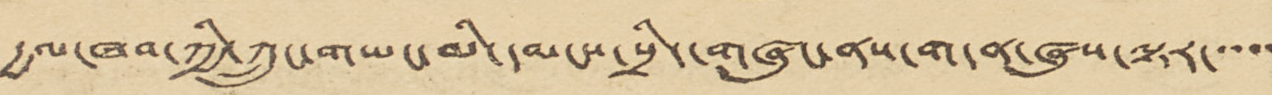རྒྱལ་ཁབ་ཀྱི་ཀྲུང་གཡང་མི་དམངས་སྲིད་གཞུང་ནས་གདན་ཞུས་ལྟར་་་་་
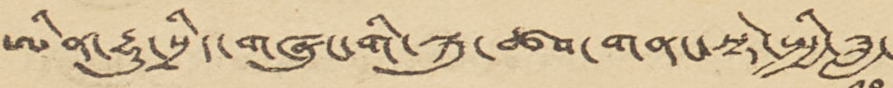ཨིན་རྷུ་སྲིད་གཞུང་གི་སྐུ་ཚབ་གནང་སྟེ་སྤྱི་ཟླ་
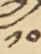༡༠
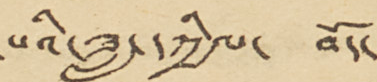པའི་ཟླ་དཀྱིལ་ བོད་
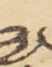ཟླ་
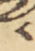༨
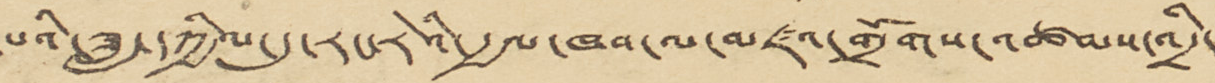པའི་ཟླ་དཀྱིལ་དུ་རང་རེའི་རྒྱལ་ཁབ་ལ་མཛའ་གྲོགས་འཚམས་འདྲི་
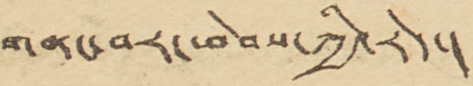གནང་བར་ཕེབས་ཀྱི་རེད་།
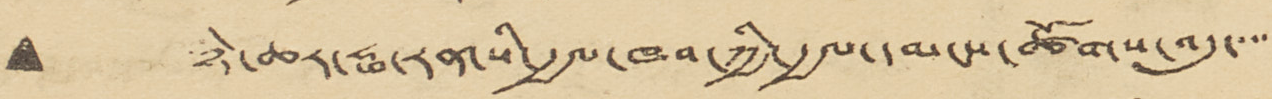• ཉེ་ཆར་ཧྥ་རན་སི་རྒྱལ་ཁབ་ཀྱི་རྒྱལ་དམངས་ཚོགས་འདུ་་་་
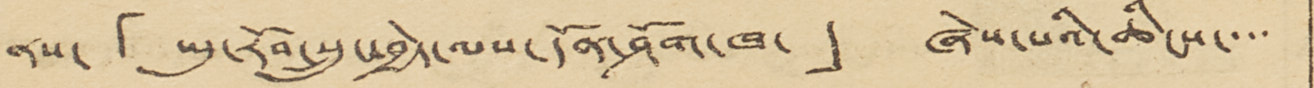ནས་ 「ཡུ་རོབ་སྲུང་བྱེད་ལས་དོན་ཤོག་ཁ་」 ཞེས་པའི་ཆིངས་་་་
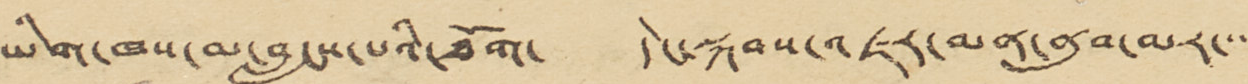ཡིག་ཁས་མ་བླངས་པའི་ཐོག་ དེང་སྐབས་འཇར་མན་ནུབ་མར་་་་
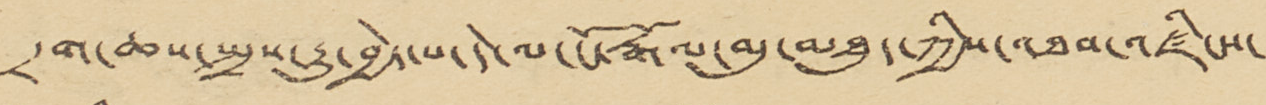དྲག་ཆས་སྤྲས་རྒྱུ་བྱེད་པ་དེ་ལ་ངོ་རྒོལ་མུ་མཐུད་ཀྱིས་འཐབ་འཛིངས་
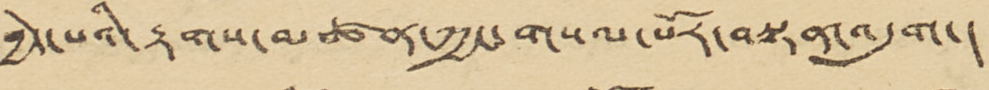བྱེད་པའི་རྟགས་མཚན་ཀྱང་གསལ་པོར་བསྟན་འདུག་།
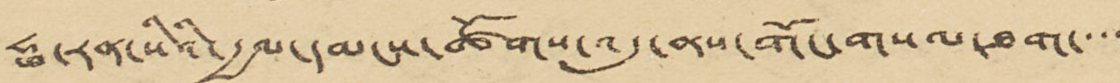ཧྥ་རན་སིའི་རྒྱལ་དམངས་ཚོགས་འདུ་ནས་གོང་གསལ་ཐག་་་་
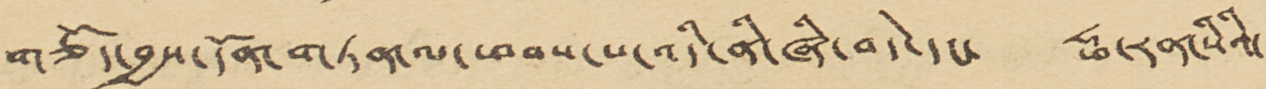གཅོད་བྱས་དོན་གཏན་ལ་ཕབས་པ་འདི་ནི་ཞི་བདེ་དང་ ཧྥྣ་རན་སིའི་
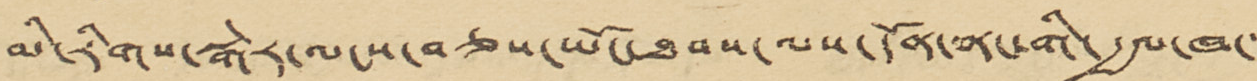མི་རིགས་སྒེར་ལངས་བཅས་ཡོང་ཐབས་ལས་དོན་ནང་གི་རྒྱལ་ཁ་་་
